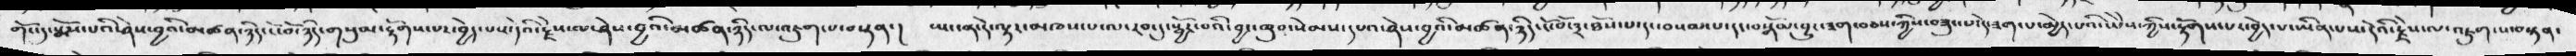གོང་དུ་སྨོས་པའི་ཤེས་བྱའི་མཚན་ཉིད་ངོ་བོ་ཉིད་གསུམ་རྟོགས་པར་བྱེད་པས་དེའི་རྗེས་ལ་ཤེས་བྱའི་མཚན་ཉིད་ལ་འཇུག་པ་བསྟན་།   ཡང་ན་དེ་ལྟར་མཁས་པ་ལ་རབ་དུ་སྦྱོང་བའི་བྱང་ཆུབ་སེམས་དཔའ་ཞེས་བྱའི་མཚན་ཉིད་ངོ་བོ་༣་ཐོས་པ་དང་བསམ་པ་དང་བསྒོམ་་བྱུང་ཟག་བཅས་ཀྱིས་བཟུང་པ་དེ་ཟག་པ་མྱེད་པའི་ཡེེས་ཀྱིས་རྟོགས་པར་བྱེད་པ་ཡིན་པས་དེའི་རྗེས་ལ་འཇུག་པ་བསྟན་
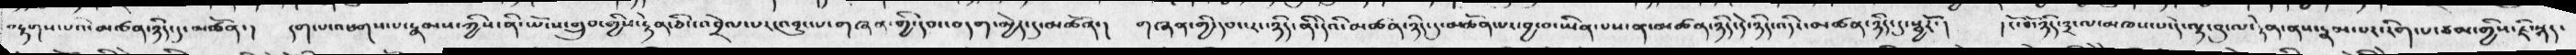བརྟགས་པའི་མཚན་ཉིད་དུ་མཚོན་།  དག་པ་འཕགས་པ་རྣམས་ཀྱིས་ནི་ཡོངས་གྲུབ་གྱིས་རྟེན་ཅིང་འབྲེལ་པར་འབྱུང་པ་གཞན་གྱི་དབང་བདག་མྱེད་དུ་མཚོན་།  གཞན་གྱི་དབང་རང་ཉིད་ནི་དེའི་མཚན་ཉིདདུ་མཚོན་པར་བྱ་བ་ཡིན་པས་ན་མཚན་ཉིད་དེ་ཉིད་འདི་མཚན་ཉིད་དུ་སྦྱརོ་།   །ངོ་བོ་ཉིད་༣་ལ་མཁས་ལ་དེ་ལྟ་བུ་ལ་རྟེན་ནས་རྣམ་པར་རིག་པ་ཙམ་གྱིས་ཇི་སྙད་
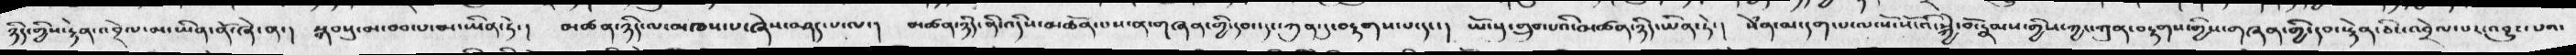ཉིད་གྱིས་རྟེན་འབྲེལ་མ་ཡིན་ནོ་ཞེ་ན་།  སྐབསུ་མ་བབ་པ་མ་ཡིན་ཏེ་།  མཚན་ཉིད་ལ་མཁས་པ་ཞེས་བཤད་པ་ལ་།   མཚན་ཉིད་ནི་འདིས་མཚོན་པས་ན་གཞན་གྱི་དབང་དང་ཀུན་དུ་བརྟགས་པ་དང་།  ཡོངསུ་གྲུབ་པའི་མཚན་ཉིད་ཡིན་ཏེ་།   སེཾན་མ་དག་པ་ལ་སོ་སོ་འི་སྐྱེ་བོ་རྣམས་ཀྱིས་ཀྱང་ཀུན་བརྟགས་གྱིས་གཞན་གྱི་དབང་རྟེན་ཅིང་འབྲེལ་པར་འབྱུང་པའ་
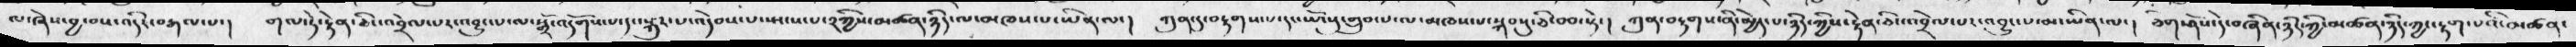ལ་ཞེས་བྱ་བས་འདིར་བརྒལ་པ་།   གལ་ཏེ་རྟེན་ཅིང་འབྲེལ་པར་འབྱུང་པ་ལ་སྒྲོ་འདོགས་པ་དང་སྐུར་པ་འདེབས་པ་སྤངས་པ་༢ཀྱིས་མཚན་ཉིད་ལ་མཁས་པ་ཡིན་ལ་།   ཀུན་དུ་བརྟགས་པ་དང་ཡོངསུ་གྲུབ་པ་ལ་མཁས་པ་སྐབསུ་ཅི་བབ་སྟེ་།  ཀུན་བརྟགས་ནི་མྱེད་པ་ཉིད་ཀྱིས་རྟེན་ཅིང་འབྲེལ་པར་འབྱུང་པ་མ་ཡིན་ལ་།  ཅིག་ཤོས་དེ་བཞིན་ཉིད་ཀྱི་མཚན་ཉིད་ཀྱང་རྟག་པའི་མཚན་
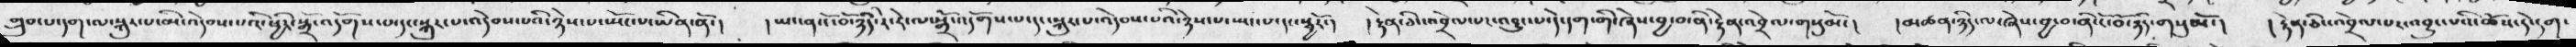གྲུབ་པ་དག་ལ་སྐུར་པ་མི་འདེབས་པའི་ཕྱིར་སྒྲོ་འདོགས་པ་དང་སྐུར་པ་འདེབས་པའི་ཉེས་པ་སྤོང་པ་ཡིན་ནོ་།  །ཡང་ན་ངོ་བོ་ཉིད་རེ་རེ་ལ་སྒྲོ་འདོགས་པ་དང་སྐུར་པ་འདེབས་པའི་ཉེས་པ་སྤང་པ་དང་སྦྱརོ་།  །རྟེན་ཅིང་འབྲེལ་པར་འབྱུང་པ་དེ་དག་གི་ཞེས་བྱ་བ་ནི་རྟེན་འབྲེལ་གསུམོ་།  །མཚན་ཉིད་ལ་ཞེས་བྱ་བ་ནི་ངོ་བོ་ཉིད་གསུམོ་།   ། རྟེན་ཅིང་འབྲེལ་པར་འབྱུང་པའི་ཆོས་དེ་དག་
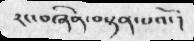རང་བཞིན་བསྟན་པའོ་།
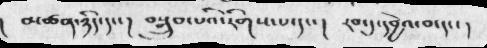།  མཚན་ཉིད་དང་།  བསྒྲུབ་པའི་རིགས་པ་དང་།  རབ་དུ་དབྱེའ་བ་དང་།
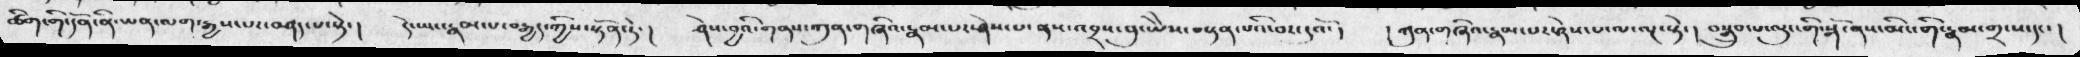ཚིག་གི་དོན་ནི་ཡན་ལག་རྒྱས་པར་བཤད་པ་སྟེ་།  དེ་ཡང་རྣམ་པ་བརྒྱད་ཀྱིས་སྟོན་ཏེ་།  ཤེས་བྱའི་གནས་ཀུན་གཞིའ་རྣམ་པར་ཤེས་པ་ནས་འབྲས་བུ་ཡཻས་བསྟན་པའི་བར་དུའོ་།  །ཀུན་གཞིའ་རྣམ་པར་ཤེས་པ་ལ་ལྔ་སྟེ་།  བསྒྲུབ་པ་ལུང་གི་སྒོ་ནས་མིང་གི་རྣམ་གྲངས་དང་།
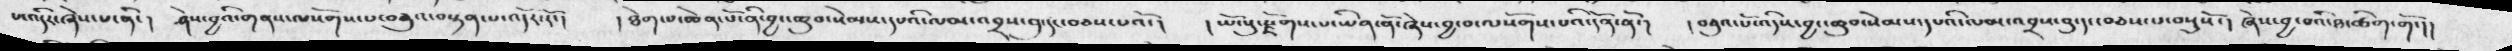པ་འདིར་ཞེས་པ་ནི་།  ཤེས་བྱའི་གནས་ལསོགས་པ་བཅུའ་བསྟན་པ་འདོར་རོ་།  །ཐེག་པ་ཆེན་པོ་ནི་བྱང་ཆུབ་སེམས་དཔའི་ལམ་འབྲས་བུ་དང་བཅས་པའོ་།  །ཡོངསུ་རྫོགས་པ་ཡིན་ནོ་ཞེས་བྱ་བ་ལསོགས་པའི་དོན་ནོ་།  །བཅུའ་པོ་འདིས་བྱང་ཆུབ་སེམས་དཔའི་ལམ་འབྲས་བུ་དང་བཅས་པ་བསྡུསོ་། ཞེས་བྱ་བའི་ཐ་ཚིག་གོ་།།
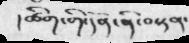།ཚིག་གི་དོན་ནི་བསྟན་
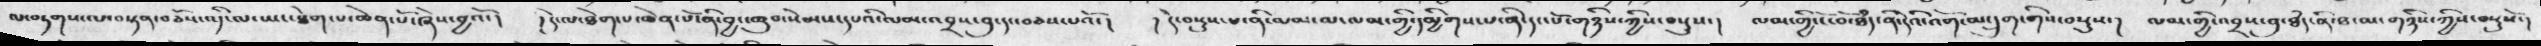ལ་བཏགས་ལ་བསྟན་བཅོས་འདི་ལ་ཡང་ཐེག་པ་ཆེན་པོ་ཞེས་བྱའོ་།  །དེ་ལ་ཐེག་པ་ཆེན་པོ་ནི་བྱང་ཆུབ་སེམས་དཔའི་ལམ་འབྲས་བུ་དང་བཅས་པའོ་། །དེ་བསྡུས་པ་ནི་ལམ་ལ་ལམ་གྱི་དམྱིགས་པ་ནི་དང་པོ་གཉིས་ཀྱིས་བསྡུས་། ལམ་གྱི་ངོ་བོ་ཐཾད་ནི་དེའི་འོག་མ་དྲུག་གིས་བསྡུས་།  ལམ་གྱི་འབྲས་བུ་ཐཾད་ནི་ཐ་མ་གཉིས་ཀྱིས་བསྡུསོ་།
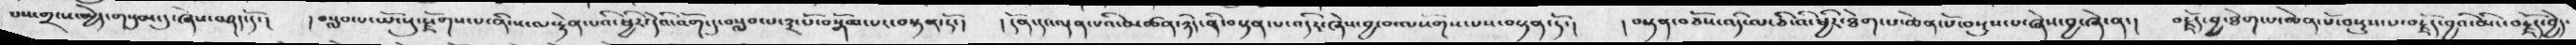པས་གྲངས་མེད་གསུམ་དུ་ཞེས་བཤད་དོ་།  །བསླབ་པ་ཡོངསུ་རྫོགས་པ་ནི་ས་ལ་རྟེན་པའི་ཕྱིར་དེའི་འོག་ཏུ་བསླབ་པ་༣་པོ་བསྒོམ་པར་བསྟན་ཏོ་།  །དོན་དང་ལྡན་པའི་མཚན་ཉིད་ནི་བསྟན་པ་འདིར་ཞེས་བྱ་བ་ལསོགས་པས་བསྟན་ཏོ་།  །བསྟན་བཅོས་འདི་ལ་ཅི་འི་ཕྱིར་ཐེག་པ་ཆེན་པོ་བསྡུས་པ་ཞེས་བྱ་ཞེ་ན་།  བརྗོད་བྱ་ཐེག་པ་ཆེན་པོ་བསྡུས་པ་ཆེན་པོ་བསྡུས་པ་བརྗོད་བྱའི་མིང་བརྗོད་བྱེད་
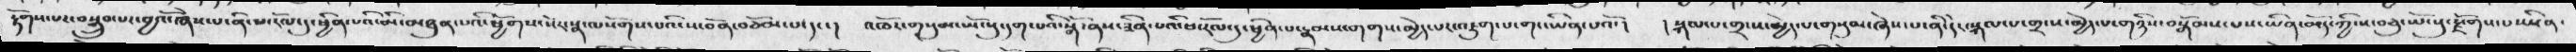རྟོགས་པར་བསྒྲུབ་པར་བྱའོ་ཞེས་པ་ནི་ཕ་རོལ་དུ་ཕྱིན་པའི་མི་མཐུན་པའི་ཕྱོགས་སེར་སྣ་ལསོགས་པའི་ས་བོན་བཅོམ་པ་དང་།  འཁོར་གསུམ་ཡོངསུ་དག་པའི་སྒོ་ནས་ཟིན་པའི་ཕ་རོལ་དུ་ཕྱིན་པ་རྣམས་གགས་མྱེད་པར་འཇུག་པ་གང་ཡིན་པའོ་།  །སྐལ་པ་གྲངས་མྱེད་པ་གསུམ་ཞེས་པ་ནི་དེ་སྐལ་པ་གྲངས་མྱེད་པ་གཉིས་བསྒོམས་པས་ཡིན་མོད་ཀྱི་ས་བཅུ་ཡོངསུ་རྫོགས་པ་ཡིན་
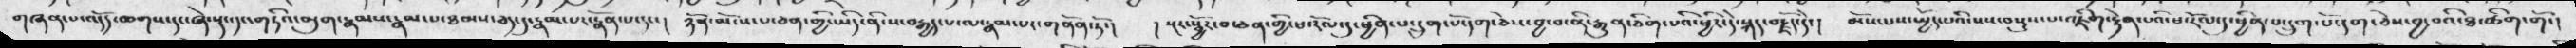གཞན་པ་འདོད་ཆགས་དང་ཞེ་སྡང་དང་གཏིའ་མུག་རྣམས་རྣམ་པ་ཐམས་ཅད་དུ་རྣམ་པར་རྣོན་པ་དང་།  ཉོན་མོངས་པ་ཅན་གྱི་ཕ་རོལ་དུ་ཕྱིན་པ་དྲུག་པོ་དག་ཅེས་བྱ་བ་ནི་རྒྱུན་ཅིག་པའི་ཕྱིར་དེ་སྐད་བརྗོད་དེ་།  མོས་པས་སྤྱོད་པའི་སས་བསྡུས་པ་འཇིག་རྟེན་པའི་ཕ་རོལ་དུ་ཕྱིན་པ་དྲུག་པོ་དག་ཅེས་བྱ་བའི་ཐ་ཚིག་གོ་།
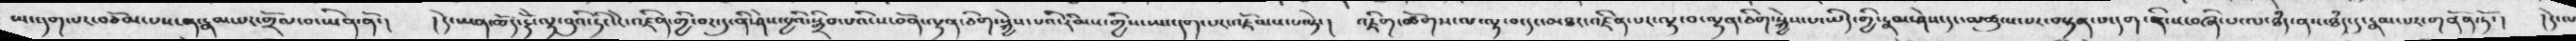ཡང་དག་པར་བཅོམ་པས་ན་རྣམ་པར་གྲོལ་བ་ཡིན་ནོ་།   །དེ་ཡན་ཆོད་རྡོེ་ལྟ་བུའི་ཏིང་ངེ་འཛིན་གྱི་བར་དུ་ནི་ཤེས་བྱའི་སྒྲིབ་པའི་ས་བོན་ལྷན་ཅིག་སྐྱེས་པའི་རིམས་གྱིས་ཡང་དག་པར་འཇོམས་པ་སྟེ་།   འཇིག་ཚོགས་ལ་ལྟ་བ་དང་མཐར་འཛིན་པར་ལྟ་བ་ལྷན་ཅིག་སྐྱེས་པ་ཡིད་གྱི་རྣམ་ཤེས་དང་མཚུངས་པར་བསྟན་པ་དག་ནི་ས་བཞི་པ་ལ་ཐཾད་ནས་ཐཾད་དུ་རྣམ་པར་གནོན་ཏོ་།  །དེ་ལ
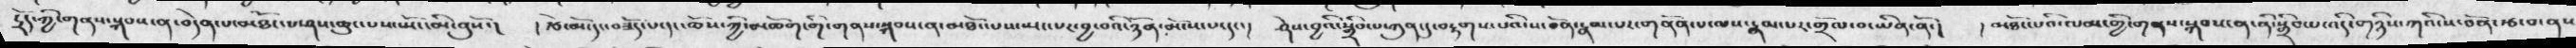དྲོད་ཀྱི་གནས་སྐབས་ན་བདེན་པ་མཐོང་པ་ནས་ཆུང་པས་སྤོང་མི་ནུསོ་།  ། རྩེ་མོ་དང་བཟོད་པ་དང་ཆོས་ཀྱི་མཆོག་གི་གནས་སྐབས་ན་མཐོང་པས་སྤང་པར་བྱ་བའི་ཉོན་མོངས་པ་དང་།  ཤེས་བྱའི་སྒྲིབ་པ་ཀུན་དུ་བརྟགས་པའི་ས་བོན་རྣམ་པར་གནོན་པ་ལས་རྣམ་པར་གྲོལ་བ་ཡིན་ནོ་།  ། མཐོང་པའི་ལམ་གྱི་གནས་སྐབས་ན་ནི་སྒྲིབ་པ་འདི་གཉིས་ཀའི་ས་བོན་རྩ་བ་ནས
